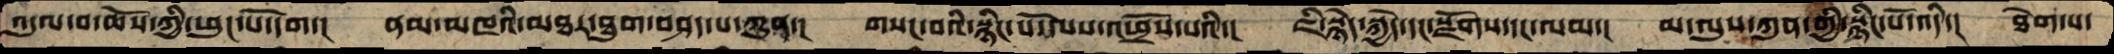འདུལ་བ་ཆོས་ཀྱི་ཕུང་པོ་དག་།  ནམ་མཁའི་མཐར་ཐུག་བཤད་པ་ཀུན་།  གསང་བའི་སྙིང་པོ་ལས་འཕྲོས་པའི་།  ཇི་སྙེད་སྐྱེད་དང་སྫོགས་དང་ལམ་།  མ་ལུས་ཀུན་གྱི་སྙིང་པོ་འདི་།  ཐེག་པ་
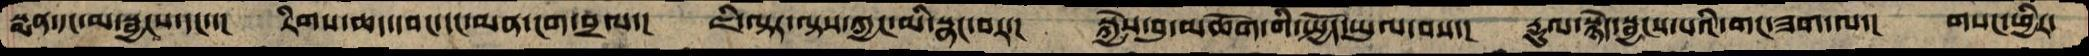སྨན་དང་མ་སྦྱངས་དང་་།  རིགས་ཆད་དབང་དང་མན་ངག་བྲལ་།  ཇི་ལྟར་ལྟས་ཀྱང་མི་སྣང་བར་།  སྐྱེས་བུ་མཆོག་གི་སྤྱོད་ཡུལ་བས་།  རྡུལ་སྙེད་སྦྱངས་པའི་གང་ཟག་ལ་།  གསང་ཕྱིར་
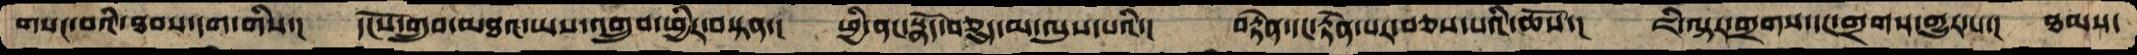གསང་བའི་ཐབས་དག་གིས་།  དངོས་གྲུབ་མཐའ་ཡས་འགྲུབ་ཕྱིར་བསྟན་།  ཕྱི་ནང་སྣོད་བཅུད་མ་ལུས་པའི་།  བརྟེན་དང་རྟེན་པར་བཅས་པའི་ཆོས་།  ཇི་ལྟར་གྲགས་དང་གྲགས་གྱུར་པ་།  ཐམས་
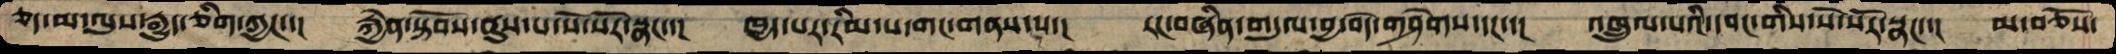ཅད་མ་ལུས་རྒྱུད་ཅིག་ཀྱང་་།  རྐྱེན་སྟོབས་ནུས་པ་སོ་སོར་སྣང་་།  ཁྱད་པར་རིམ་པ་གང་གནས་པ་།  རང་བཞིན་གདུལ་བྱ་བདེ་གཤེགས་དང་་།  འཁྲུལ་པའི་དབང་གིས་སོ་སོར་སྣང་་།  མ་བཅོས་
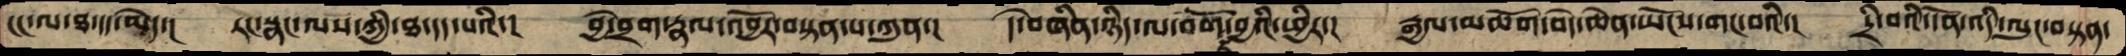ངང་ལ་ཐ་དད་མེད་།   རང་སྣང་ལས་ཀྱི་ཐ་དད་པའི་།  བྱེ་བྲག་རྣལ་འབྱོར་བསྟན་པ་ཀུན་།  དེ་བཞིན་ཉིད་ལ་བགོ་བྱའི་ཕྱིར་།  རྒྱལ་མཆོག་བདེ་ཆེན་ཡོངས་གང་བའི་།  དྲི་བའི་དོན་འདི་ལུང་བསྟན་
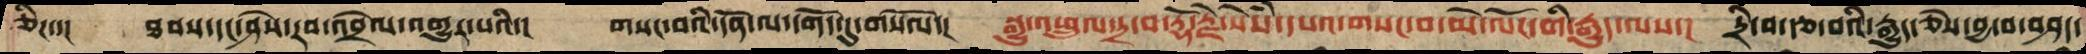ཅིང་་།   ཐབས་དང་ཤེས་རབ་འབྲེལ་འགྱུར་པའི་།   གསང་བའི་དོན་ལ་དགོད་དུ་གསོལ་།  སྒྱུ་འཕྲུལ་དྲ་བ་རྡོ་རྗེ་སེསཾ་དཔའ་གསང་བ་མེ་ལོང་གི་རྒྱུད་ལས་།  དྲི་བ་རྩ་བའི་རྒྱུད་ཅེས་བྱ་བ་བཤད་
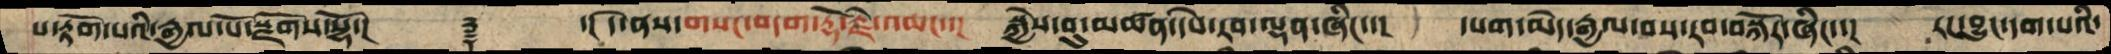པ་རྟོག་པའི་རྒྱལ་པོ་སྫོགས་སྷོ་།       ࿑     ་། དེ་ནས་གསང་བདག་རྡོ་རྗེ་འཆང་་།  སྐྱེས་བུ་མཚན་དཔེ་རབ་ལྡན་ཞིང་་།   དཔག་མེད་རྒྱལ་བས་རབ་བསྐོར་ཞིང་་།  རང་བྱུང་དག་པའི་
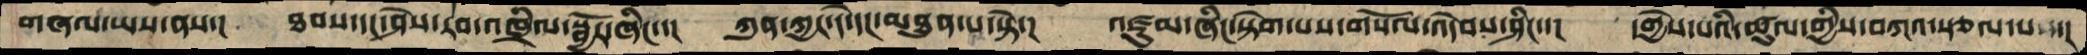གཞལ་ཡས་ནས་།  ཐབས་དང་ཤེས་རབ་འཁྲིལ་སྦྱོར་ཞིང་་།  ཀུན་ཀྱང་དེ་དང་མཐུན་པ་སྟེ་།    འཛུམ་ཞིང་སྟེག་པས་གསོལ་འདེབས་ཤིང་་།  དགྱེས་པའི་ཚུལ་གྱིས་བཀའ་སྩལ་པས་།
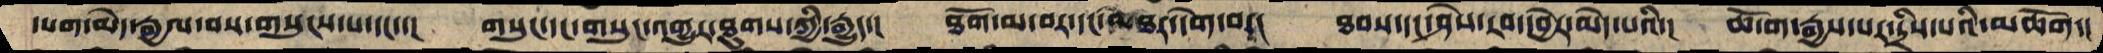དཔག་མེད་རྒྱལ་བས་གསུངས་པ་དང་་།  གསུང་དང་གསུང་འགྱུར་ཐུགས་ཀྱི་རྒྱུད་།   ཐོག་མ་བར་དང་མཐར་དགེ་བ་།   ཐབས་དང་ཤེས་རབ་དབྱེར་མེད་པའི་།  ཆོ་ག་རྒྱས་པར་དྲིས་པའི་མཆོག་།
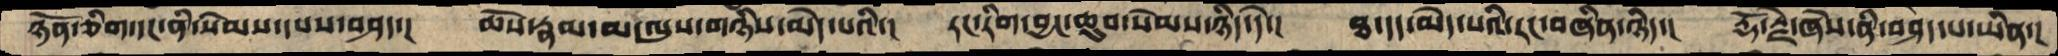ཉོན་ཅིག་དང་ནི་སེམས་དཔས་བཤད་།   ཆོས་རྣམ་མ་ལུས་གཉིས་མེད་པའི་།  རང་རིག་བྱང་ཆུབ་སེམས་ཉིད་དེ་།   ཐ་དད་མེད་པའི་རང་བཞིན་ཉིད་།   རྡོ་རྗེ་ཞེས་ནི་བཤད་པ་ཡིན་།
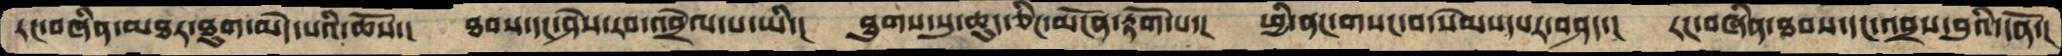རང་བཞིན་མཐར་ཐུག་མེད་པའི་ཆོས་།  ཐབས་དང་ཤེས་རབ་འབྲེལ་པ་ཡི་།  ཐུགས་སུ་ཆུད་ཅིང་མངོན་རྟོག་པ་།  ཕྱི་ནང་གསང་བ་སེམས་དཔར་བཤད་།  རང་བཞིན་ཐབས་དང་འབྲས་བུའི་དོན་།
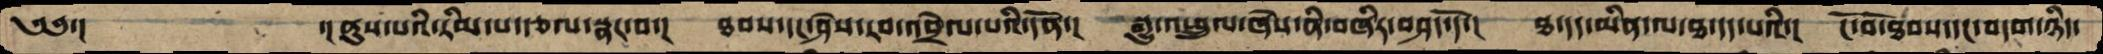༄༅་།      ་།ནུས་པའི་རིམ་པ་རྩལ་སྣང་བ་།  ཐབས་དང་ཤེས་རབ་འབྲེལ་པའི་དོན་།  སྒྱུ་འཕྲུལ་ཞེས་ནི་བཞིར་བཤད་དོ་།  ཐ་དད་མིན་ལ་ཐ་དད་པའི་།  ངོ་བོ་ཐབས་དང་བདག་ཉིད་
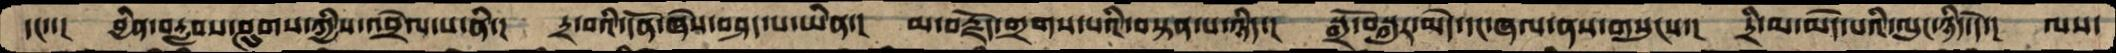དང་་།  བྱིན་བརླབས་ཤུགས་ཀྱིས་འབྲེལ་པ་ནི་།  དྲ་བའི་དོན་ཞེས་བཤད་པ་ཡིན་།  མ་བརྗོད་གྲགས་པའི་བསྟན་པ་ཉིད་།  སྒྲོ་བསྐུར་མེད་དང་ཞལ་ནས་གསུངས་།  དྲི་མ་མེད་པའི་ལུང་ཉིད་དེ་།  ལས་
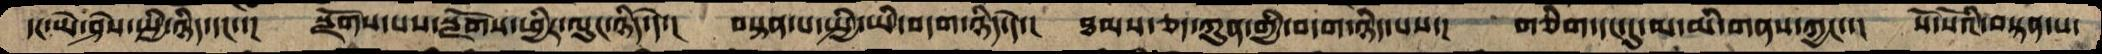དང་ཡེ་ཤེས་སྤྱི་ཉིད་དང་་།  སྫོགས་པས་སྫོགས་ཕྱིར་ལུང་ཉིད་དེ་།  བསྟན་པ་སྤྱི་ཡི་བདག་ཉིད་དེ་།  ཐམས་ཅད་ཀུན་གྱི་བདག་ཉིད་པས་།  གཅིག་དང་དུ་མ་མི་གནས་ཀྱང་་།  སོ་སོའི་བསྟན་པ་
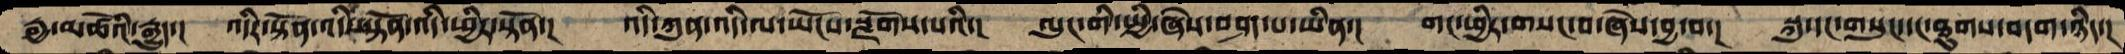རྒྱ་མཚོའི་རྒྱུད་།  འདིར་སྟོན་འདི་སྟོན་འདི་ཕྱིར་སྟོན་།  འདི་ཀུན་འདི་ལ་ཡོངས་སྫོགས་པའི་།  ལུང་གི་སྤྱི་ཞེས་བཤད་པ་ཡིན་།  གང་ཕྱིར་གསང་བ་ཞེས་བྱ་བ་།  སྐུ་དང་གསུང་དང་ཐུགས་བདག་ཉིད་།
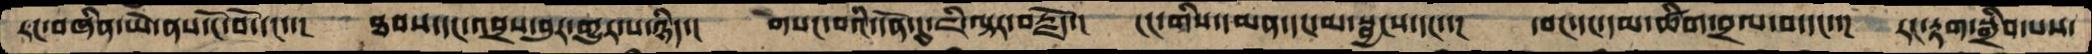རང་བཞིན་ཡེ་ནས་ངོ་བོ་དང་་།   ཐབས་དང་འབྲས་བུར་གྱུར་པ་ཉིད་།   གསང་བའི་དོན་དུ་ཇི་ལྟར་བརྗོད་།  ངང་གིས་དམན་དང་མ་སྦྱངས་དང་་།   དབང་དང་དམ་ཚིག་བྲལ་བ་དང་་།   རང་རྟག་སྒྲིབ་པས་
